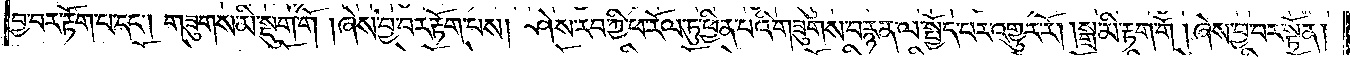བྱ་བར་རྟོག་པ་དང༌། གཟུགས་མི་སྡུག་གོ །ཞེས་བྱ་བར་རྟོག་པས། ཤེས་རབ་ཀྱི་ཕ་རོལ་ཏུ་ཕྱིན་པའི་གཟུགས་བརྙན་ལ་སྤྱོད་པར་འགྱུར་རོ། །སྒྲ་མི་རྟག་གོ། ཞེས་བྱ་བར་སྟོན།
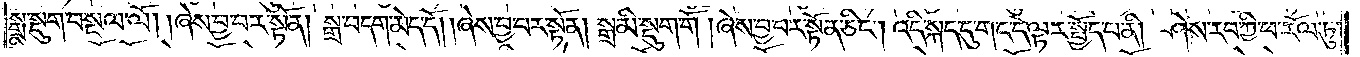སྒྲ་སྡུག་བསྔལ་ལོ། །ཞེས་བྱ་བར་སྟོན། སྒྲ་བདག་མེད་དོ། །ཞེས་བྱ་བར་སྟོན། སྒྲ་མི་སྡུག་གོ། ཞེས་བྱ་བར་སྟོན་ཅིང༌། འདི་སྐད་དུ་གང་དེ་ལྟར་སྤྱོད་པ་ནི། ཤེས་རབ་ཀྱི་ཕ་རོལ་ཏུ་
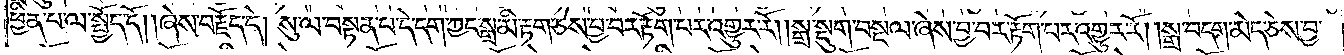ཕྱིན་པ་ལ་སྤྱོད་དོ། །ཞེས་བརྗོད་དེ། སུ་ལ་བསྟན་པ་དེ་དག་ཀྱང་སྒྲ་མི་རྟག་ཅེས་བྱ་བར་རྟོག་པར་འགྱུར་རོ། །སྒྲ་སྡུག་བསྔལ་ཞེས་བྱ་བར་རྟོག་པར་འགྱུར་རོ། །སྒྲ་བདག་མེད་ཅེས་བྱ་
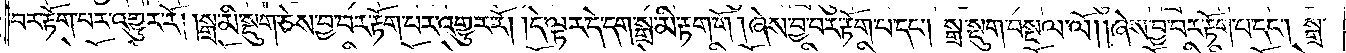བར་རྟོག་པར་འགྱུར་རོ། །སྒྲ་མི་སྡུག་ཅེས་བྱ་བར་རྟོག་པར་འགྱུར་རོ། །དེ་ལྟར་དེ་དག་སྒྲ་མི་རྟག་གོ། ཞེས་བྱ་བར་རྟོག་པ་དང༌། སྒྲ་སྡུག་བསྔལ་ལོ། །ཞེས་བྱ་བར་རྟོག་པ་དང༌། སྒྲ་
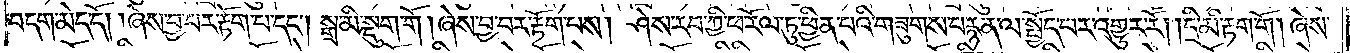བདག་མེད་དོ། །ཞེས་བྱ་བར་རྟོག་པ་དང༌། སྒྲ་མི་སྡུག་གོ། ཞེས་བྱ་བར་རྟོག་པས། ཤེས་རབ་ཀྱི་ཕ་རོལ་ཏུ་ཕྱིན་པའི་གཟུགས་བརྙན་ལ་སྤྱོད་པར་འགྱུར་རོ། །དྲི་མི་རྟག་གོ། ཞེས་
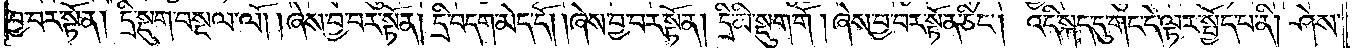བྱ་བར་སྟོན། དྲི་སྡུག་བསྔལ་ལོ། །ཞེས་བྱ་བར་སྟོན། དྲི་བདག་མེད་དོ། །ཞེས་བྱ་བར་སྟོན། དྲི་མི་སྡུག་གོ། །ཞེས་བྱ་བར་སྟོན་ཅིང༌། འདི་སྐད་དུ་གང་དེ་ལྟར་སྤྱོད་པ་ནི། ཤེས་
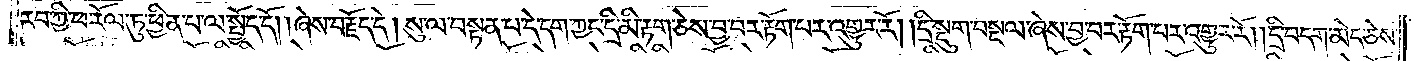རབ་ཀྱི་ཕ་རོལ་ཏུ་ཕྱིན་པ་ལ་སྤྱོད་དོ། །ཞེས་བརྗོད་དེ། སུ་ལ་བསྟན་པ་དེ་དག་ཀྱང་དྲི་མི་རྟག་ཅེས་བྱ་བར་རྟོག་པར་འགྱུར་རོ། །དྲི་སྡུག་བསྔལ་ཞེས་བྱ་བར་རྟོག་པར་འགྱུར་རོ། །དྲི་བདག་མེད་ཅེས་
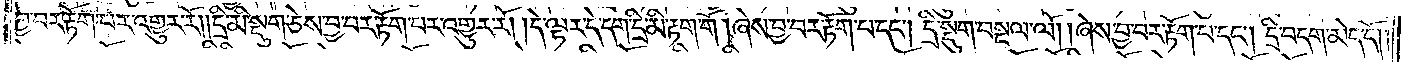བྱ་བར་རྟོག་པར་འགྱུར་རོ། །དྲི་མི་སྡུག་ཅེས་བྱ་བར་རྟོག་པར་འགྱུར་རོ། །དེ་ལྟར་དེ་དག་དྲི་མི་རྟག་གོ། ཞེས་བྱ་བར་རྟོག་པ་དང༌། དྲི་སྡུག་བསྔལ་ལོ། །ཞེས་བྱ་བར་རྟོག་པ་དང༌། དྲི་བདག་མེད་དོ༎
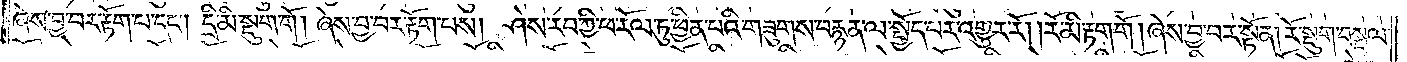ཞེས་བྱ་བར་རྟོག་པ་དང༌། དྲི་མི་སྡུག་གོ། ཞེས་བྱ་བར་རྟོག་པས། ཤེས་རབ་ཀྱི་ཕ་རོལ་ཏུ་ཕྱིན་པའི་གཟུགས་བརྙན་ལ་སྤྱོད་པར་འགྱུར་རོ། །རོ་མི་རྟག་གོ། ཞེས་བྱ་བར་སྟོན། རོ་སྡུག་བསྔལ་
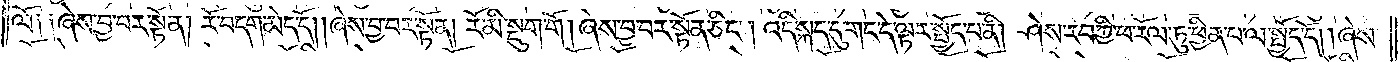ལོ༑ ༑ཞེས་བྱ་བར་སྟོན། རོ་བདག་མེད་དོ། །ཞེས་བྱ་བར་སྟོན། རོ་མི་སྡུག་གོ། ཞེས་བྱ་བར་སྟོན་ཅིང༌། འདི་སྐད་དུ་གང་དེ་ལྟར་སྤྱོད་པ་ནི། ཤེས་རབ་ཀྱི་ཕ་རོལ་ཏུ་ཕྱིན་པ་ལ་སྤྱོད་དོ། །ཞེས་
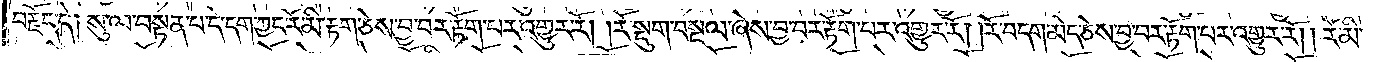བརྗོད་དེ། སུ་ལ་བསྟན་པ་དེ་དག་ཀྱང་རོ་མེ་རྟག་ཅེས་བྱ་བར་རྟོག་པར་འགྱུར་རོ། །རོ་སྡུག་བསྔལ་ཞེས་བྱ་བར་རྟོག་པར་འགྱུར་རོ། །རོ་བདག་མེད་ཅེས་བྱ་བར་རྟོག་པར་འགྱུར་རོ། །རོ་མི་
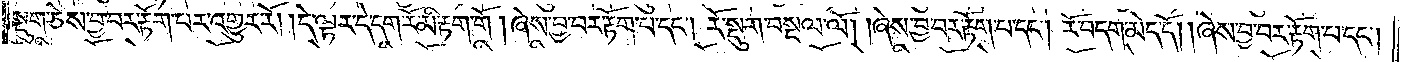སྡུག་ཅེས་བྱ་བར་རྟོག་པར་འགྱུར་རོ། དེ་ལྟར་དེ་དག་རོ་མ་རྟག་གོ། ཞེས་བྱ་བར་རྟོག་པ་དང༌། རོ་སྡུག་བསྔལ་ལོ། །ཞེས་བྱ་བར་རྟོག་པ་དང༌། རོ་བདག་མེད་དོ། །ཞེས་བྱ་བར་རྟོག་པ་དང༌།
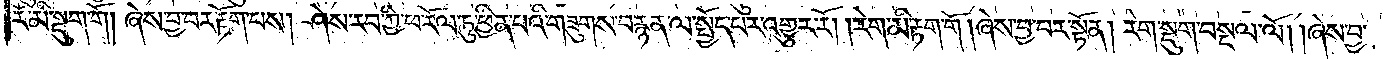རོ་མི་སྡུག་གོ། ཞེས་བྱ་བར་རྟོག་པས། ཤེས་རབ་ཀྱི་ཕ་རོལ་ཏུ་ཕྱིན་པའི་གཟུགས་བརྙན་ལ་སྤྱོད་པར་འགྱུར་རོ། །རེག་མི་རྟག་གོ། ཞེས་བྱ་བར་སྟོན། རེག་སྡུག་བསྔལ་ལོ། །ཞེས་བྱ་
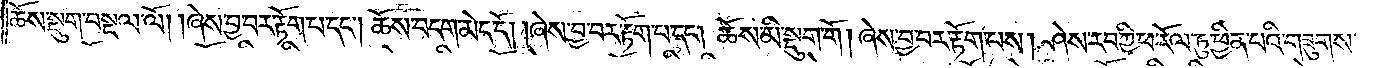ཆོས་སྡུག་བསྔལ་ལོ། །ཞེས་བྱ་བར་རྟོག་པ་དང༌། ཆོས་བདག་མེད་དོ། །ཞེས་བྱ་བར་རྟོག་པ་དང༌། ཆོས་མི་སྡུག་གོ། ཞེས་བྱ་བར་རྟོག་པས། ཤེས་རབ་ཀྱི་ཕ་རོལ་ཏུ་ཕྱིན་པའི་གཟུགས་
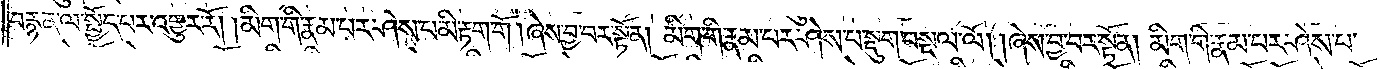བརྙན་ལ་སྤྱོད་པར་འགྱུར་རོ། །མིག་གི་རྣམ་པར་ཤེས་པ་མི་རྟག་གོ། ཞེས་བྱ་བར་སྟོན། མིག་གི་རྣམ་པར་ཤེས་པ་སྡུག་བསྔལ་ལོ། །ཞེས་བྱ་བར་སྟོན། མིག་གི་རྣམ་པར་ཤེས་པ་
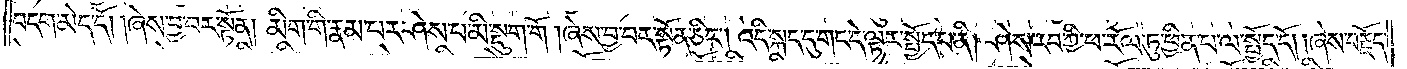བདག་མེད་དོ། །ཞེས་བྱ་བར་སྟོན། མིག་གི་རྣམ་པར་ཤེས་པ་མི་སྡུག་གོ། ཞེས་བྱ་བར་སྟོན་ཅིང༌། འདི་སྐད་དུ་གང་དེ་ལྟར་སྤྱོད་པ་ནི། ཤེས་རབ་ཀྱི་ཕ་རོལ་ཏུ་ཕྱིན་པ་ལ་སྤྱོད་དོ། །ཞེས་བརྗོད་
